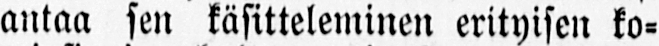antaa sen käsitteleminen erityisen ko-
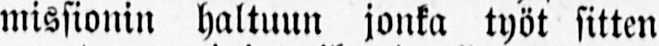missionin haltuun jonka työt sitten
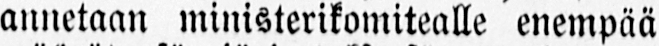annetaan ministerikomitealle enempää
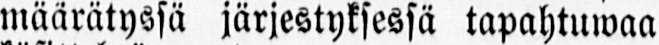määrätyssä järjestyksessä tapahtuwaa
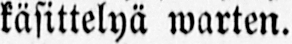käsittelyä warten.
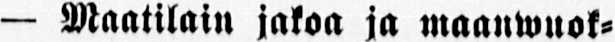— Maatilain jakoa ja maanwuok-
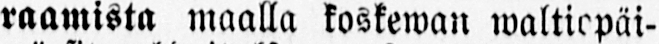raamista maalla koskewan waltiopäi-
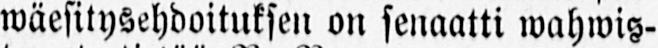wäesitysehdoituksen on senaatti wahwis-
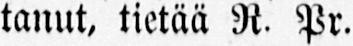tanut, tietää N. Pr.
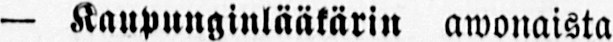— Kaupunginlääkärin awonaista
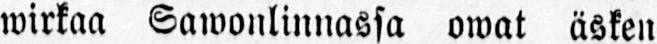wirkaa Sawonlinnassa owat äsken
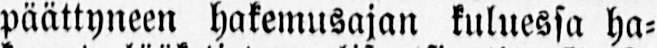päättyneen hakemusajan kuluessa ha-
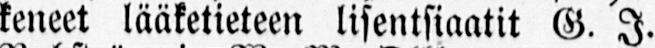keneet lääketieteen lisentsiaatit G. I.
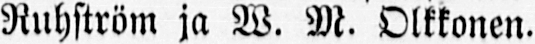Ruhström ja W. M. Olkkonen.
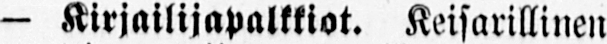— Kirjailijapalkkiot. Keisarillinen
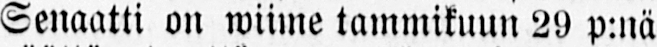Senaatti on wiime tammikuun 29 p:nä
